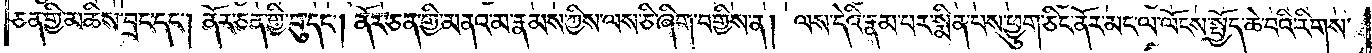ཅན་གྱི་མཆིས་བྲང་དང༌། ནོར་ཅན་གྱི་བུ་དང༌། ནོར་ཅན་གྱི་མནའ་མ་རྣམས་ཀྱིས་ལས་ཅི་ཞིག་བགྱིས་ན། ལས་དེའི་རྣམ་པར་སྨིན་པས་ཕྱུག་ཅིང་ནོར་མང་ལ་ལོངས་སྤྱོད་ཆེ་བའི་རིགས་
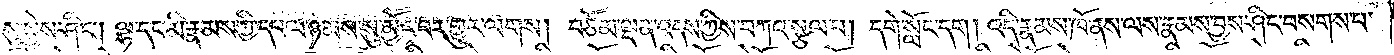སུ་སྐྱེས་ཤིང༌། ལྷ་དང་མི་རྣམས་ཀྱི་དཔལ་ཉམས་སུ་མྱོང་བར་གྱུར་ལགས། བཅོམ་ལྡན་འདས་ཀྱིས་བཀའ་སྩལ་པ། དགེ་སློང་དག །འདི་རྣམས་ཁོ་ནས་ལས་རྣམས་བྱས་ཤིང་བསགས་པ་
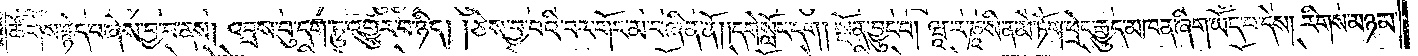ཚོགས་རྙེད་པ་ཞེས་བྱ་བ་ནས། འབྲས་བུ་དག་ཏུ་འགྱུར་བ་ཉིད། །ཅེས་བྱ་བའི་བར་གོང་མ་བཞིན་ནོ། །དགེ་སློང་དག །སྔོན་བྱུང་བ། ཝཱ་ར་ཎཱ་སི་ན་མེ་ཏོག་ཕྲེང་རྒྱུན་མཁན་ཞིག་ཡོད་པ་དེས། རིགས་མཉམ་
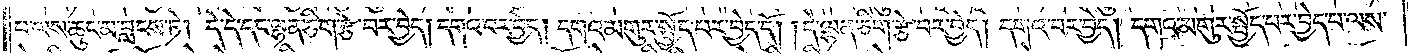པ་ལས་ཆུང་མ་བླངས་ཏེ། དེ་དེ་དང་ལྷན་ཅིག་རྩེ་བར་བྱེད། དགའ་བར་བྱེད། དགའ་མགུར་སྤྱོད་པར་བྱེད་དོ། །དེ་ལྷན་ཅིག་རྩེ་བར་བྱེད། དགའ་བར་བྱེད། དགའ་མགུར་སྤྱོད་པར་བྱེད་པ་ལས་
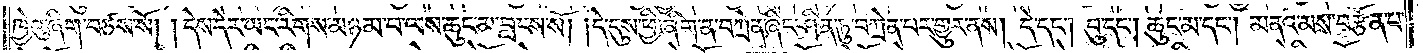ཁྱེའུ་ཞིག་བཙས་སོ། །དེས་དེར་ཡང་རིགས་མཉམ་པ་ལས་ཆུང་མ་བླངས་སོ། །དེ་དུས་ཕྱི་ཞིག་ན་བཀྲེན་ཞིང་ཤིན་ཏུ་བཀྲེན་པར་གྱུར་ནས། དེ་དང༌། བུ་དང༌། ཆུང་མ་དང༌། མནའ་མས་བརྩོན་པ་
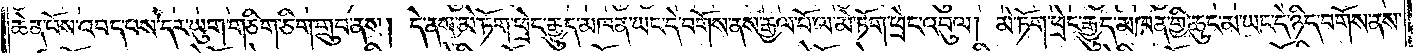ཆེན་པོས་འབད་པས་དར་ཡུག་གཅིག་ཅིག་གྲུབ་ནས། དེ་ནས་མེ་ཏོག་ཕྲེང་རྒྱུད་མཁན་ཡང་དེ་བགོས་ནས་རྒྱལ་པོ་ལ་མེ་ཏོག་ཕྲེང་འབུལ། མེ་ཏོག་ཕྲེང་རྒྱུད་མཁན་གྱི་ཆུང་མ་ཡང་དེ་ཉིད་བགོས་ནས་
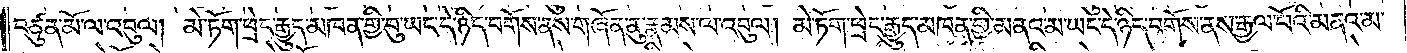བཙུན་མོ་ལ་འབུལ། མེ་ཏོག་ཕྲེང་རྒྱུད་མཁན་གྱི་བུ་ཡང་དེ་ཉིད་བགོས་ནས་གཞོན་ནུ་རྣམས་ལ་འབུལ། མེ་ཏོག་ཕྲེང་རྒྱུད་མཁན་གྱི་མནའ་མ་ཡང་དེ་ཉིད་བགོས་ནས་རྒྱལ་པོའི་མནའ་མ་
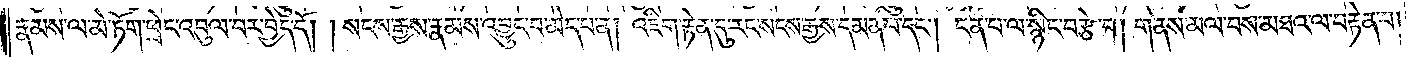རྣམས་ལ་མེ་ཏོག་ཕྲེང་འབུལ་བར་བྱེད་དོ། །སངས་རྒྱས་རྣམས་འབྱུང་བ་མེད་པ་ན། འཇིག་རྟེན་དུ་རང་སངས་རྒྱས་དམན་པ་དང༌། ངན་པ་ལ་སྙིང་བརྩེ་བ། གནས་མལ་བས་མཐའ་ལ་བརྟེན་པ།
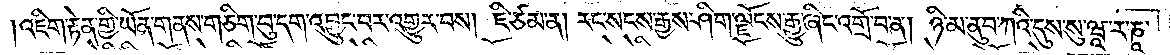།འཇིག་རྟེན་གྱི་ཡོན་གནས་གཅིག་བུ་དག་འབྱུང་བར་འགྱུར་བས། ཇི་ཙམ་ན། རང་སངས་རྒྱས་ཤིག་ལྗོངས་རྒྱུ་ཞིང་འགྲོ་བ་ན། ཉི་མ་ནུབ་ཀའི་དུས་སུ་ཝཱ་ར་ཎཱ་
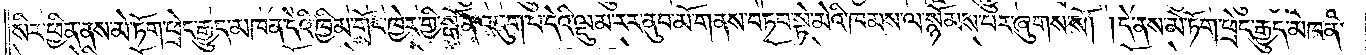སིར་ཕྱིན་ནས་མེ་ཏོག་ཕྲེང་རྒྱུད་མཁན་དེའི་ཁྱིམ་གྲོང་ཁྱེར་གྱི་སྒོ་ན་འདུག་པ་དེའི་ལྡུམ་རར་ནུབ་མོ་གནས་བཏབ་སྟེ་མེའི་ཁམས་ལ་སྙོམས་པར་ཞུགས་སོ། །དེ་ནས་མེ་ཏོག་ཕྲེང་རྒྱུད་མཁན་
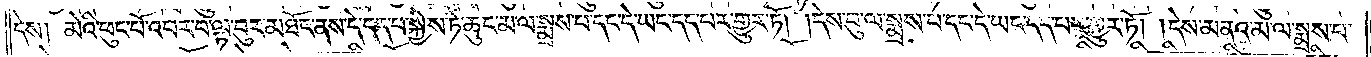དེས། མེའི་ཕུང་པོ་འབར་བ་ལྟ་བུར་མཐོང་ནས་དེ་དད་པ་སྐྱེས་ཏེ་ཆུང་མ་ལ་སྨྲས་པ་དང་དེ་ཡང་དད་པར་གྱུར་ཏོ། །དེས་བུ་ལ་སྨྲས་པ་དང་དེ་ཡང་དད་པར་གྱུར་ཏོ། །དེས་མནའ་མ་ལ་སྨྲས་པ་
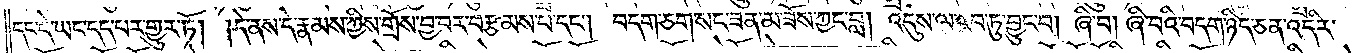དང་དེ་ཡང་དད་པར་གྱུར་ཏོ། །དེ་ནས་དེ་རྣམས་ཀྱིས་གྲོས་བྱ་བར་བརྩམས་པ་དང༌། བདག་ཅག་སང་ཟན་མ་ཟོས་ཀྱང་བླ། འདུས་ལ་རབ་ཏུ་བྱུང་བ། ཞི་བ། ཞི་བའི་བདག་ཉིད་ཅན་འདིར་
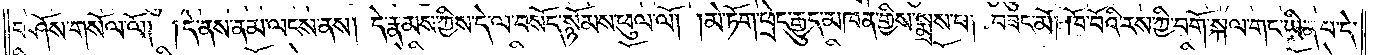བཤོས་གསོལ་ལོ། །དེ་ནས་ནམ་ལངས་ནས། དེ་རྣམས་ཀྱིས་དེ་ལ་བསོད་སྙོམས་ཕུལ་ལོ། །མེ་ཏོག་ཕྲེང་རྒྱུད་མཁན་གྱིས་སྨྲས་པ། བཟང་མོ། ཁོ་བོའི་རས་ཀྱི་བགོ་སྐལ་གང་ཡིན་པ་དེ་
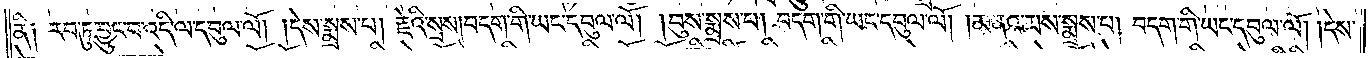ནི༑ རབ་ཏུ་བྱུང་བ་འདི་ལ་དབུལ་ལོ། །དེས་སྨྲས་པ། རྗེའི་སྲས།བདག་གི་ཡང་དབུལ་ལོ། །བུས་སྨྲས་པ། བདག་གི་ཡང་དབུལ་ལོ། །མནའ་མས་སྨྲས་པ། བདག་གི་ཡང་དབུལ་ལོ། །དེས་
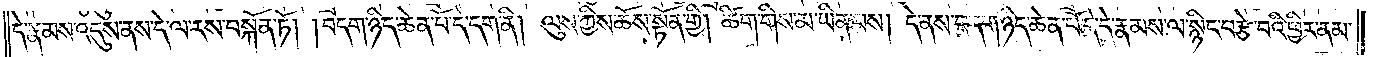དེ་རྣམས་འདུས་ནས་དེ་ལ་རས་བསྐོན་ཏོ། །བདག་ཉིད་ཆེན་པོ་དེ་དག་ནི། ལུས་ཀྱིས་ཆོས་སྟོན་གྱི། ཚིག་གིས་མ་ཡིན་པས། དེ་ནས་བདག་ཉིད་ཆེན་པོ་དེ་དེ་རྣམས་ལ་སྙིང་བརྩེ་བའི་ཕྱིར་ནམ་
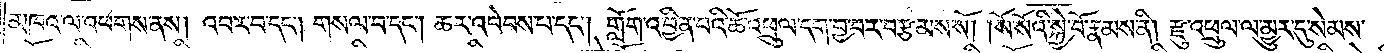མཁའ་ལ་འཕགས་ནས། འབར་བ་དང༌། གསལ་བ་དང༌། ཆར་འབེབས་པ་དང༌། གློག་འབྱིན་པའི་ཆོ་འཕྲུལ་དག་བྱ་བར་བརྩམས་སོ། །སོ་སོའི་སྐྱེ་བོ་རྣམས་ནི། རྫུ་འཕྲུལ་ལ་མྱུར་དུ་སེམས་
